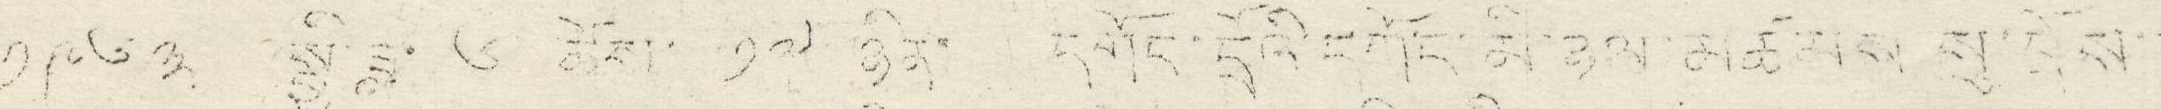༡༩༦༣ སྤྱི་ཟླ་ ༦ ཚེས་ ༡༧ ཉིན་ དགོང་དྲོའི་དགོང་མི་ཉལ་མཚམས སུ་བྲོས་་
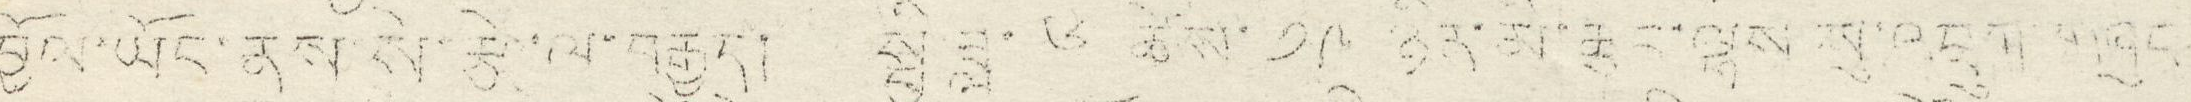བྱོལ་ཡོང་ནས་སི་རྩེ་ལ་བརྒྱུད། སྤྱི་ཟླ་ ༦ ཚེས་ ༡༩ ཉིན་མི་ཆུང་ལྷས་སུ་འབྲུག་གཞུང
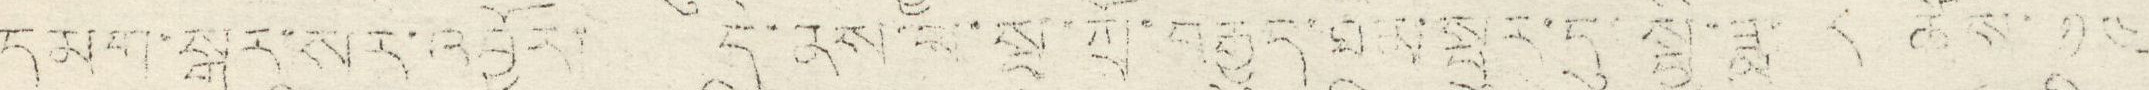དམག་སྒར་སར་འབྱོར། དེ་ནས་པ་སྦ་ཀྲོ་བརྒྱུད་ཐིམ་སྤུར་དུ་སྤྱི་ཟླ་ ༧ ཚེས་ ༡༤
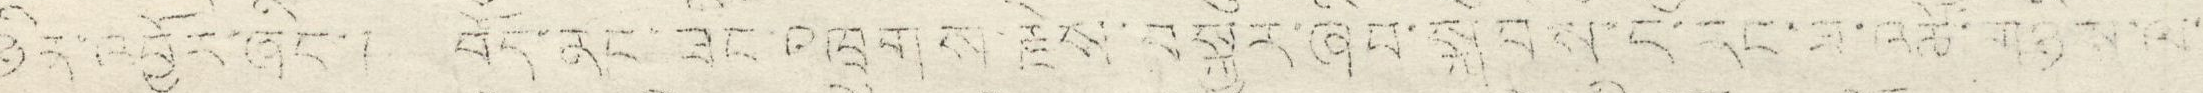ཉིན་འབྱོར་ཞིང་། བོད་ནང་ཟིང་འཁྲུགས་རྗེས་བསྐྱར་ཞིབ་སྐབས་ད་རང་ཟ་འཚོ་གཉིས་ལ་
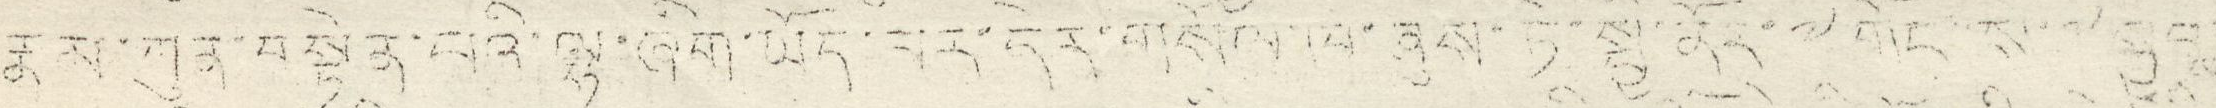རྣམ་ཀུན་བསྟེན་པའི་ལྷ་ཞིག་ཡོད་པར་དེར་གསོལ་ཁ་ཞུས་ཏེ་སྤྱི་ནོར་༸གོང་ས་༸སྐྱབས་
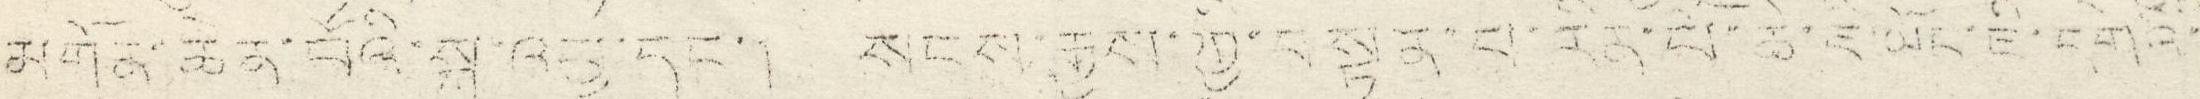མགོན་ཆེན་པོའི་སྐུ་འཕྱ་དང་། སངས་རྒྱས་ཀྱི་བསྟན་པ་རིན་པོ་ཆེ་ཇི་ཡོད་ཇི་དགེའི་
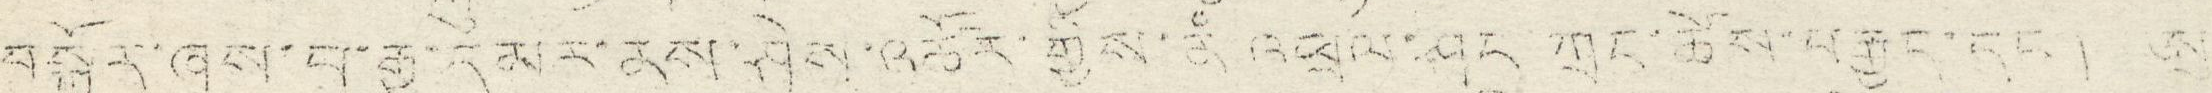བསྒྱོར་ཞུས་པ་རྒྱ་དེ་མར་ནས་ཤེས་འཚོར་གྱིས་ནཾ འཕྲལ་ཤང ཀྲང་ཚེས་བརྒྱད་དང་། ཨུ་
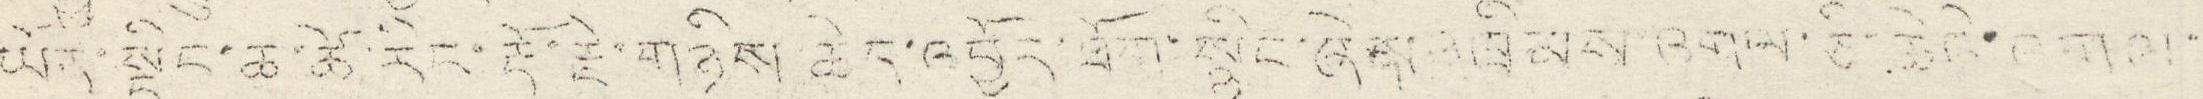ཡོར་སྡིང་ཆ་ཚེ་རིང་རྡོ་རྗེ་གཉིས་ཆེད་འབྱོར་ཐོག་སྙིང་ཞེས་འཁྲིམས་འགལ་ཅི་ཆེའི་འགལ་
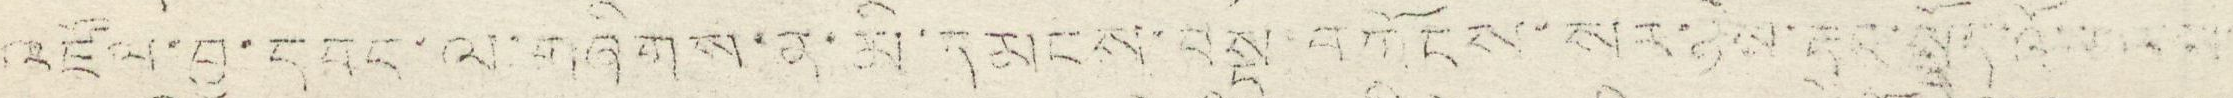འཛོལ་བྱ་དབང་ལ་གཞིགས་ན་མི་དམངས་བསྡུ་བཀོངས་སར་ཉེས་རྡུང་སྣོད་འོ་་་་་
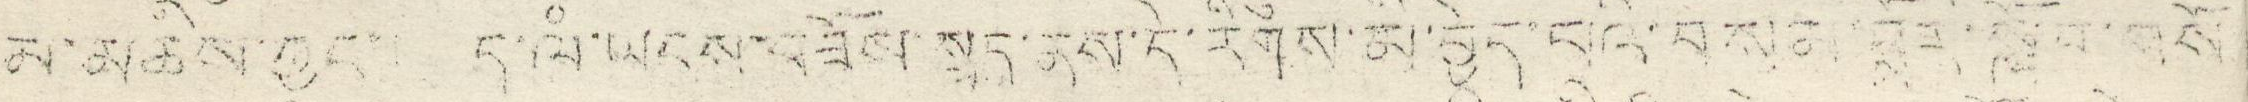མ་མཆིས་ཀྱང་། ད་ལཾ་ཡངས་བཟོས་སླད་ནས་དེ་རིགས་མི་བྱེད་པའི་བསམ་བློར་སློབ་གསོ
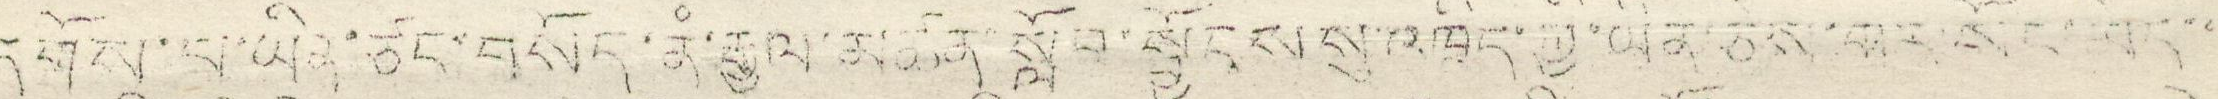དགོས་པ་ཡིན་ཙང་བསོད་ནཾ་རྒྱལ་མཚན་སློབ་སྦྱོངས་སུ་འཁྲིད་ཀྱི་ཡིན་ཅེས་གར་སོང་མེད་་
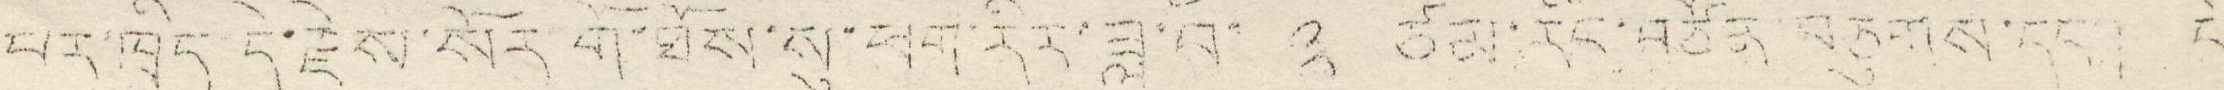པར་ཁྲིད་དེ་རྗེས་སོར་གོ་ཐོས་སུ་ཕག་རིར་ཟླ་བ་ ༣ ཙམ་རིང་བཙོན་བཅུགས་དང་། དེ
